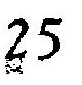25
